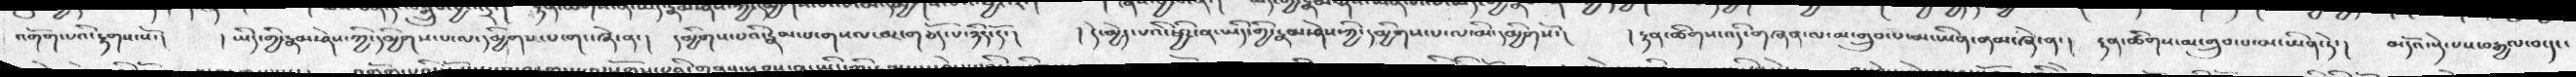འགོག་པའི་རྟགས་སོ་།  ། ཡིད་གྱི་རྣམ་ཤེས་ཀྱི་དམྱིགས་པ་ལ་དམྱིགས་པ་གང་ཞེ་ན་།   དམྱིགས་པའི་རྣམ་པ་གསལ་ལ་གཅོད་པ་ཉིད་དོ་།  ། དེ་མྱེད་པའི་ཕྱིར་ན་ཡིད་གྱི་རྣམ་ཤེས་ཀྱི་དམྱིགས་པ་ལ་མི་དམྱིགསོ།   ། རྟན་ཚིགས་འདི་གཞན་ལ་མ་གྲུབ་པ་མ་ཡིན་ནམ་ཞེ་ན་།  རྟན་ཚིགས་མ་གྲུབ་པ་མ་ཡིན་ཏེ་།   མདོའ་སྡེ་པས་བརྒྱལ་བ་དང་
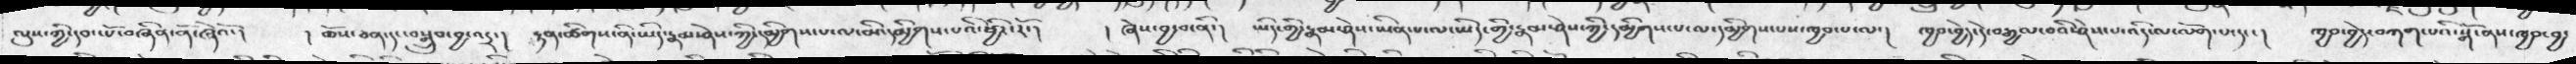ལུས་ཀྱི་དབང་པོ་བཞིན་ནོ་ཞེའོ་།  ། ཆོས་ཅན་དང་བསྒྲུབ་བྱ་འདྲ་།   རྟན་ཚིགས་ནི་ཡིད་རྣམ་ཤེས་ཀྱི་དམྱིགས་པ་ལ་མི་དམྱིགས་པའི་ཕྱིར་།  །ཞེས་བྱ་བ་ནི་།  ཡིད་གྱི་རྣམ་ཤེས་ཡིན་པ་ལ་ཡིད་གྱི་རྣམ་ཤེས་ཀྱི་དམྱིགས་པ་ལ་དམྱིགས་པས་ཁྱབ་པ་ལ་།   ཁྱབ་བྱེད་དེ་བརྒྱལ་བའི་ཤེས་པ་འདི་ལ་ལོག་པ་དང་།   ཁྱབ་བྱེད་བཀག་པའི་སྒོ་ནས་ཁྱབ་བྱ་
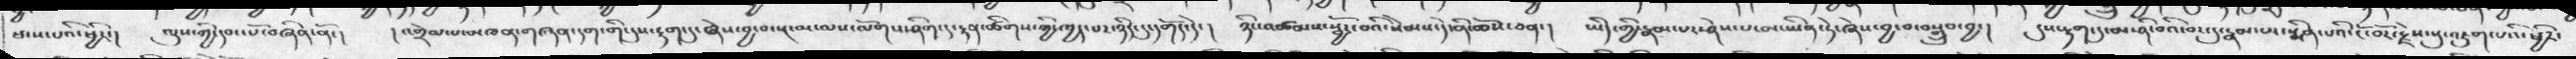ཕངས་པའི་ཕྱིར་།  ལུས་དབང་པོ་བཞིན་ནོ་།  ། འགྲེལ་པ་མཁན་གཞན་དག་གི་དུས་རྟག་དུ་ཞེས་བྱ་བ་སྔ་མ་ལས་ལོགས་ཤིག་ཏུ་རྟན་ཚིགས་གྱི་ཁྱད་པར་ཉིད་དུ་དགོད་དེ་།   ཉིང་འཚམས་སྦྱོར་བའི་སེམས་དེ་ནི་ཆོས་ཅན་།   ཡིད་གྱི་རྣམ་པར་ཤེས་པ་མ་ཡིན་ཏེ་ཞེས་བྱ་བ་བསྒྲུབ་བྱ་།   དུས་རྟག་དུ་མ་ཤི་བའི་བར་དུ་རྣམ་པར་སྨིན་པའི་ངོ་བོར་རྗེས་སུ་འཇུག་པའི་ཕྱིར་
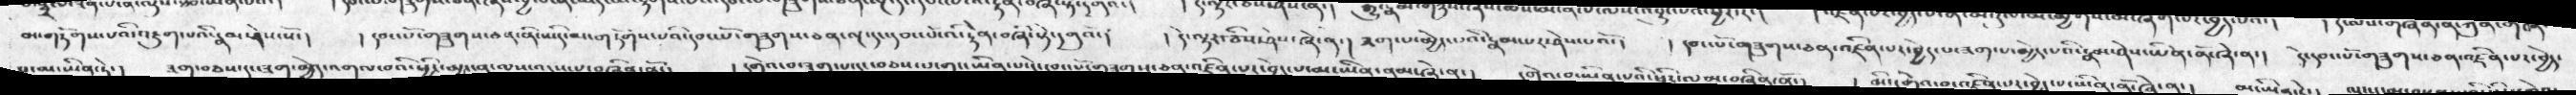མ་གཏོགས་པའི་འཇུག་པའི་རྣམ་ཤེས་སོ་།   ། དབང་པོ་གཟུགསཅན་ནི་ས་དེ་མ་གཏོགས་པའི་དབང་པོ་གཟུགས་ཅན་ལྔ་དང་དབང་པོ་འི་རྟེན་བཞི་སྟེ་དགུའ་།   ། དེ་ལྟར་ཅིས་ཤེས་ཞེ་ན་།   ཟག་པ་མྱེད་པའི་རྣམ་པར་ཤེས་པའོ་།   ། དབང་པོ་གཟུགས་ཅན་འཛིན་པར་བྱེད་པ་ཟག་པ་མྱེད་པའི་རྣམ་ཤེས་ཡིན་ནོ་ཞེ་ན་།   དེ་དབང་པོ་གཟུགས་ཅན་འཛིན་པར་བྱེད་
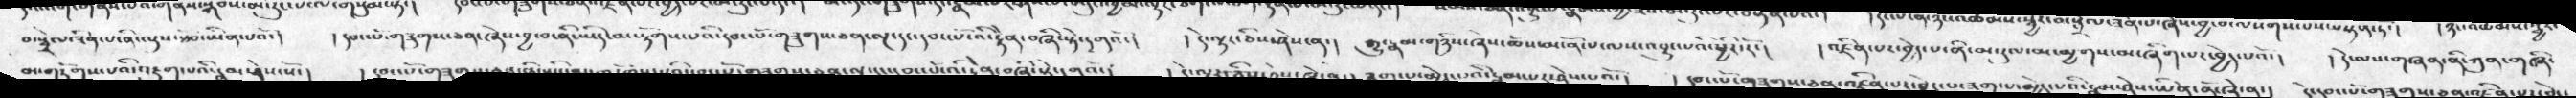བ་སྦྲེལ་ཟིན་པ་ནི་ལུས་ཐོབ་པའོ་།    ། དབང་པོ་གཟུགས་ཅན་ཞེས་བྱ་བ་ནི་ཡིད་མ་རྟོགས་པའི་དབང་པོ་གཟུགས་ཅན་ལྔ་ད་དབང་པོ་འི་རྟེན་བཞི་སྟེ་དགུའོ་།  ། དེ་ལྟར་ཅིས་ཤེས་ན་།   རྒྱུ་རྣམ་གཉིས་ཞེས་ཆོས་མངོན་པ་ལ་འབྱུང་པའི་ཕྱིར་རོ་།  ། འཛིན་པར་བྱེད་པ་ནི་མ་དུལ་མ་མྱགས་མ་ཞིག་པར་བྱེད་པའོ་།   ། དེ་ལས་གཞན་ན་ཀུན་གཞི་
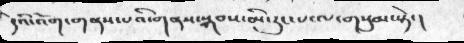དེའི་འོག་གནས་པའི་གནས་སྐབས་མི་རུང་པ་ལ་གསུམ་སྟེ་།
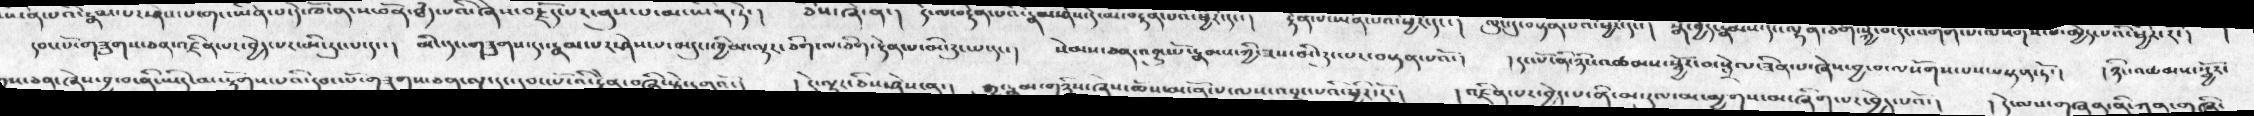དབང་པོ་གཟུགས་ཅན་འཛིན་པར་བྱེད་པར་མི་རུང་པ་དང་།  མིང་དང་གཟུགས་དང་རྣམ་པར་ཤེས་པ་མདུང་ཁྱིམ་ལྟར་ཅིག་ལ་ཅིག་རྟེན་པ་མི་རུང་པ་དང་།   སེམས་ཅན་འབྱུང་པོ་རྣམས་ཟས་མི་རུང་པར་བསྟན་པའོ་།  ། དང་པོ་ནི་ཉིང་འཚམས་སྦྱོར་བ་སྦྲེལ་ཟིན་པ་ཞེས་བྱ་བ་ལསོགས་པས་བསྟན་ཏོ་།   ། ཉིང་འཚམས་སྦྱོར་
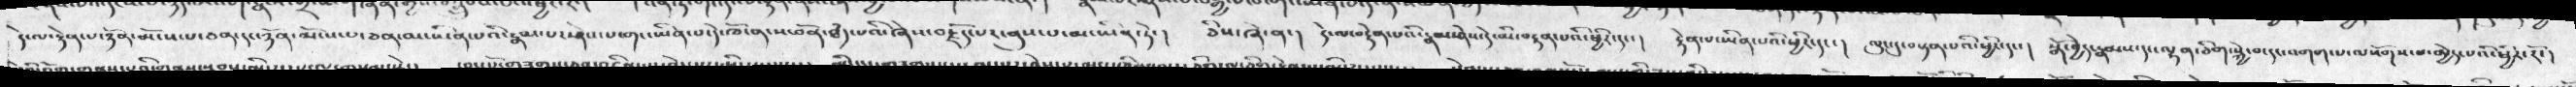དེ་ལ་རྟེན་པ་ཉོན་མོངས་པ་ཅན་དང་ཉོན་མོངས་པ་ཅན་མ་ཡིན་པའི་རྣམ་པར་ཤེས་པ་གང་ཡིན་པ་དེ་ཁོ་ན་ས་བོན་ཐཾད་པའི་ཞེས་བརྗོད་པར་ནུས་པ་མ་ཡིན་ཏེ་།  ཅིས་ཞེ་ན་།  དེ་ལ་བརྟེན་པའི་རྣམ་ཤེས་དེ་མི་བརྟན་པའི་ཕྱིར་དང་།  རྟེན་པ་ཡིན་པའི་ཕྱིར་དང་།  ལུང་དུ་བསྟན་པའི་ཕྱིར་དང་།  སྒོ་བྱེད་རྣམས་དང་ལྷན་ཅིག་སྐྱེ་བ་དང་འགག་པ་ལསོགས་པ་མྱེད་པའི་ཕྱིར་རོ་།
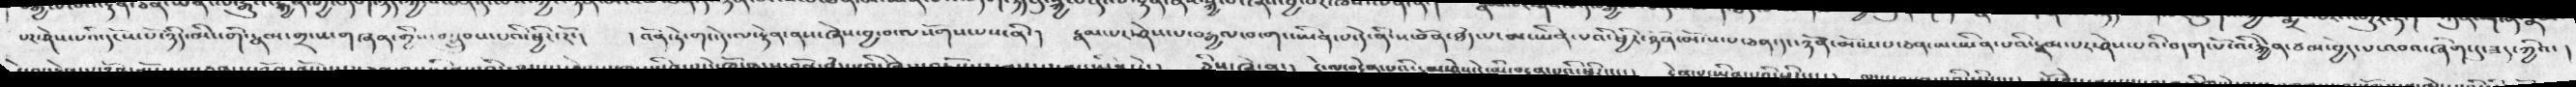པར་ཤེས་པའི་དངོས་པོ་ཉིད་མིང་གི་རྣམ་གྲངས་གཞན་གྱི་བསྒྲུབས་པའི་ཕྱིར་རོ་།་  ། འོན་ཏེ་གང་དེ་ལ་རྟེན་ནས་ཞེས་བྱ་བ་ལསོགས་པས་ནི་།  རྣམ་པར་ཤེས་པ་བརྒྱལ་བ་གང་ཡིན་པ་དེ་ནི་ས་བོན་ཐཾད་པ་མ་ཡིན་པའི་ཕྱིར་ཉོན་མོངས་པ་ཅན་དང་ཉོན་མོངས་པ་ཅན་མ་ཡིན་པའི་རྣམ་པར་ཤེས་པའི་བདག་པོ་འི་རྐྱེན་ཙམ་བྱེད་པ་འབའ་ཞིག་དུ་ཟད་ཀྱིས་ །
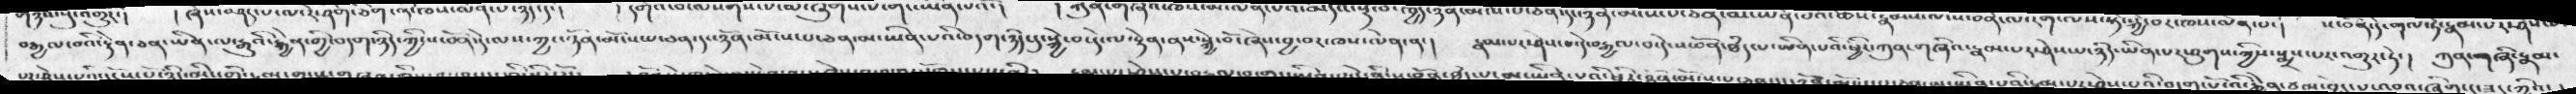བརྒྱལ་བའི་རྟེན་ཅན་ཡིན་ལ་རྒྱུའི་རྐྱེན་གྱི་བདག་ཉིད་ཀྱི་ས་བོན་དེ་ལས་ཀྱང་ཉོན་མོངས་པ་ཅན་དང་ཉོན་མོངས་པ་ཅན་མ་ཡིན་པའི་བདག་ཉིད་དུ་སྐྱེ་བ་དེ་ལ་རྟེན་ནས་སྐྱེ་བོ་ཞེས་བྱ་བར་ཁས་ལེན་ན་།   རྣམ་པར་ཤེས་པ་དེ་བརྒྱལ་བ་དེ་བརྒྱལ་བ་དེ་ས་བོན་ཐཾད་པ་ཡིན་པའི་ཕྱིར་ཀུན་གཞིའ་རྣམ་པར་ཤེས་པ་ཉིད་ཡིན་པར་ཕུགས་ཀྱིས་སྨྲས་པར་འགྱུར་ཏེ་།  ཀུན་གཞི་རྣམ་
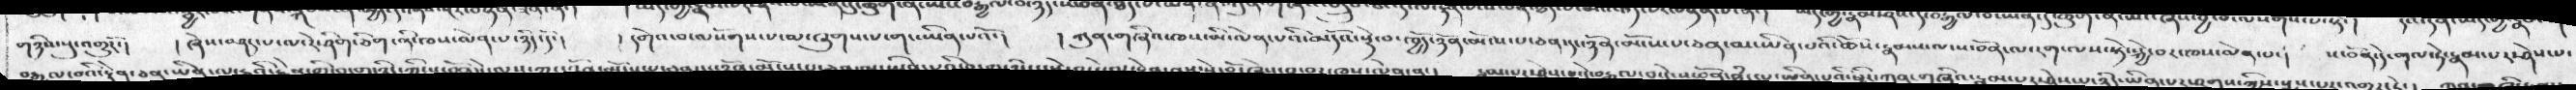གཉིས་སུ་འགྱུརོ་།  ། ཞེས་བཤད་པ་ལ་རེ་ཤིག་ཅིག་ནི་ཁས་ལེན་པ་ཉིད་པ་དོ་།   ། དགེའ་བ་ལསོགས་པ་མ་ཞུགས་པ་གང་ཡིན་པའོ་།    ། ཀུན་གཞིའ་ཁས་མི་ལེན་མདོའ་སྡེ་པ་ཁྱོད་ཉོན་མོངས་པ་ཅན་དང་ཉོན་མོངས་ཅན་མ་ཡིན་པའི་ཆོས་རྣམས་ལ་ས་བོན་ལ་རག་ལས་སྟེ་སྐྱེ་བར་ཁས་ལེན་པ་།  ས་བོན་དེ་གལ་སྟེ་རྣམ་པར་ཤེས་པ་
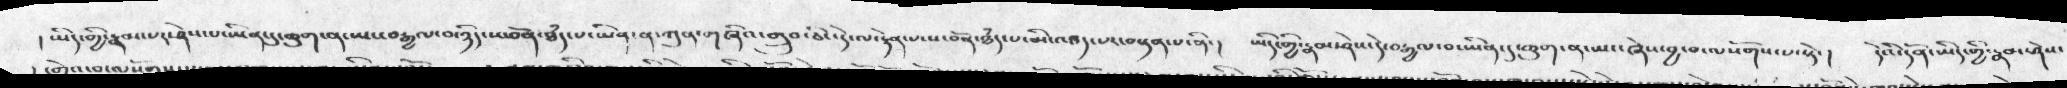།   ཡིད་གྱི་རྣམ་པར་ཤེས་པ་ཡིན་དུ་ཆུག་ན་ཡང་ཡང་བརྒྱལ་བ་ཉིད་ས་བོན་ཐཾད་པ་ཡིན་ན་ཀུན་གཞིའ་གྲུབ་ཅིང་དེ་ལ་རྟེན་པ་ས་བོན་ཐཾད་པ་མི་འཐད་པར་བསྟན་པ་ནི་།  ཡིད་གྱི་རྣམ་ཤེས་དེ་བརྒྱལ་བ་ཡིན་དུ་ཆུག་ན་ཡང་ཞེས་བྱ་བ་ལསོགས་པ་སྟེ་།  དེའི་དོན་ཡིད་གྱི་རྣམ་ཤེས་
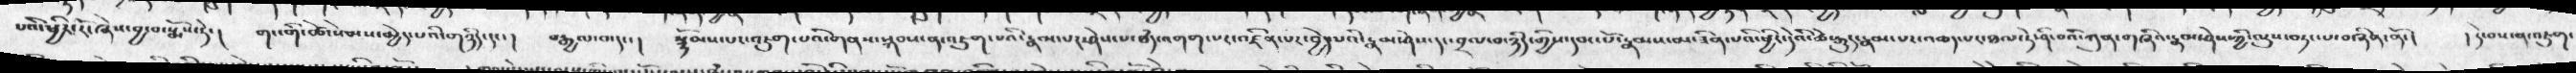པའི་ཕྱིར་རོ་ཞེ་བྱ་བ་སྨོས་ཏེ་།  གང་གི་ཚེ་སེམས་མྱེད་པའི་གཉིད་དང་།  བརྒྱལ་བ་དང་།  སྙོམས་པར་འཇུག་པའི་གནས་སྐབས་ན་འཇུག་པའི་རྣམ་པར་ཤེས་པ་ཐཾད་འགག་པར་འཛིན་པར་བྱེད་པའི་རྣམ་ཤེས་དང་བྲལ་བ་ཉིད་གྱིས་དབང་པོ་རྣམས་མ་ཟིན་པའི་ཕྱིར་དེའི་ཚེ་རྒྱུད་རྣམ་པར་འཆད་པར་ཐལ་ཏེ་ཤི་བའི་ཀུན་གཞིའ་རྣམ་ཤེས་ཀྱི་ལུས་བཏང་པ་བཞིན་ནོ་།  ། དེ་བས་འཇུག་
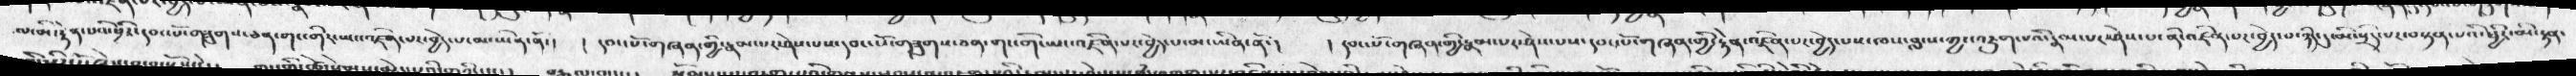ལ་མི་རྟེན་པའི་ཕྱིར་དབང་པོ་གཟུགས་ཅན་གང་གིར་ཡང་འཛིན་པར་བྱེད་པ་མ་ཡིན་ནོ་།  ། དབང་པོ་གཞན་གྱི་རྣམ་པར་ཤེས་པས་དབང་པོ་གཟུགས་ཅན་གང་གི་ཡང་འཛིན་པར་བྱེད་པ་མ་ཡིན་ནོ་།  ། དབང་པོ་གཞན་གྱི་རྣམ་པར་ཤེས་པས་དབང་པོ་གཞན་གྱི་རྟེན་འཛིན་པར་བྱེད་པས་ཁས་བླངས་ཀྱང་འཇུག་པའི་རྣམ་པར་ཤེས་པ་ནི་འཛིན་པར་བྱེད་པ་ཉིད་དུ་མི་སྲིད་པར་བསྟན་པའི་ཕྱིར་མི་རྟན་
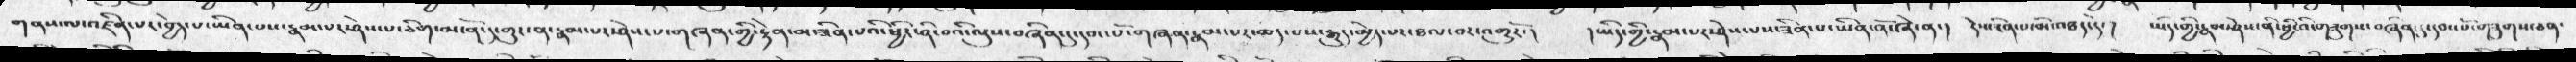གནས་ལ་འཛིན་པར་བྱེད་པ་ཡིན་པས་རྣམ་པར་ཤེས་པ་ཅིག་མངོན་དུ་གྱུར་ན་རྣམ་པར་ཤེས་པ་གཞན་གྱི་རྟེན་མ་ཟིན་པའི་ཕྱིར་ཤི་བའི་ལུས་བཞིན་དུ་དབང་པོ་གཞན་རྣམ་པར་ཆད་པས་རྒུད་མྱེད་པར་ཐལ་བར་འགྱུརོ་།  །ཡིད་གྱི་རྣམ་པར་ཤེས་པས་ཟིན་པ་ཡིན་ནོ་ཞེ་ན་།  དེས་ཟིན་པ་མི་འཐད་དེ་།  ཡིད་གྱི་རྣམ་ཤེས་ནི་ཕྱི་འི་གཟུགས་བཞིན་དུ་དབང་པོ་གཟུགས་ཅན་
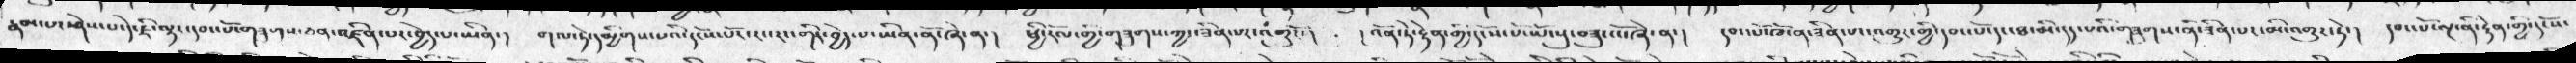རྣམ་པར་ཤེས་པ་དེ་ཇི་ལྟར་དབང་པོ་གཟུགས་ཅན་འཛིན་པར་བྱེད་པ་ཡིན་།   གལ་ཏེ་དམྱིགས་པའི་དངོས་པར་རང་རང་གིར་བྱེད་པ་ཡིན་ནོ་ཞེ་ན་།  ཕྱི་རོལ་གྱི་གཟུགས་ཀྱང་ཟིན་པར་འགྱུརོ་།   ། འོན་ཏེ་རྟེན་གྱི་དངོས་པོ་ཡོངསུ་བཟུང་ངོ་ཞེ་ན་།  དབང་པོ་ཁོ་ན་ཟིན་པར་འགྱུར་གྱི་དབང་པོ་དང་ཐ་མི་དད་པའི་གཟུགས་ནི་ཟིན་པར་མི་འགྱུར་ཏེ་།  དབང་པོ་ལྔ་ནི་རྟེན་གྱི་དངོས་
